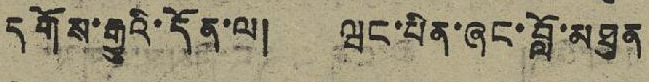དགོས་རྒྱུའི་དོན་ལ། ཝང་པིན་ཞང་བློ་མཐུན
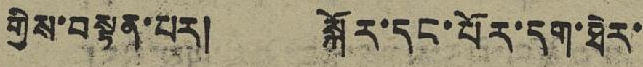གྱིས་བསྟན་པར། སྐོར་དང་པོར་དག་ཐེར་
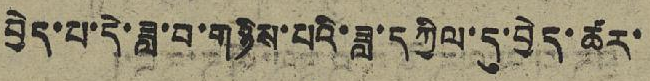བྱེད་པ་དེ་ཟླ་བ་གཉིས་པའི་ཟླ་དཀྱིལ་དུ་བྱེད་ཚར་
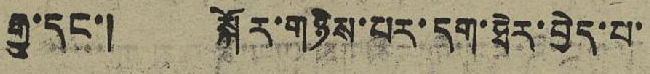རྒྱུ་དང་། སྐོར་གཉིས་པར་དག་ཐེར་བྱེད་པ་
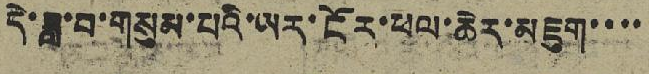དེ་ཟླ་བ་གསུམ་པའི་ཡར་ངོར་ཕ་ཆེར་མཇུག་་་་
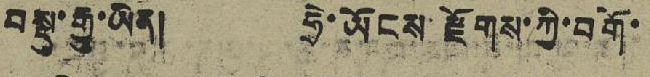བསྡུ་རྒྱུ་ཡིན། ཧྲེ་ཡོངས་རྫོགས་ཀྱི་བགོ་
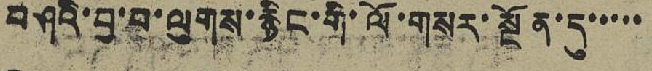བཤའི་བྱ་བ་ལུགས་རྙིང་གི་ལོ་གསར་སྔོན་དུ་་་་་
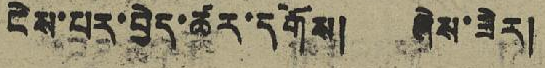ངེས་པར་བྱེད་ཚར་དགོས། ཞེས་ཟེར།
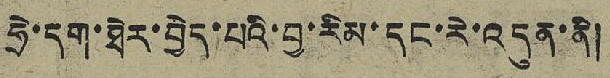ཧྲེ་དག་ཐེར་བྱེད་པའི་བྱ་རིམ་དང་རེ་འདུན་ནི།
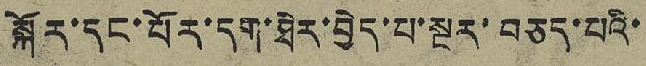སྐོར་དང་པོར་དག་ཐེར་བྱེད་པ་སྔར་བཅད་པའི་
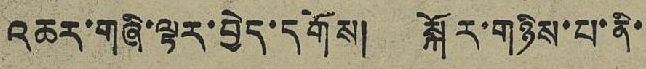འཆར་གཞི་ལྟར་བྱེད་དགོས། སྐོར་གཉིས་པ་ནི་
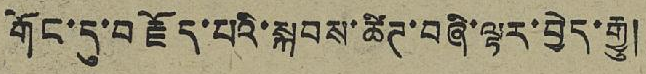གོང་དུ་བརྗོད་པའི་སྐབས་ཚིཌ་བཞི་ལྟར་བྱེད་རྒྱུ།
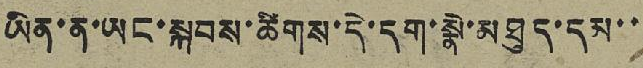ཡིན་ན་ཡང་སྐབས་ཚིགས་དེ་དག་སྣེ་མཐུད་དམ་་
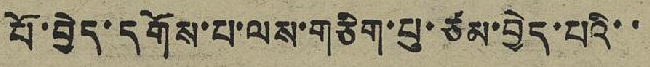པོ་བྱེད་དགོས་པ་ལས་གཅིག་པུ་ཙམ་བྱེད་པའི་་
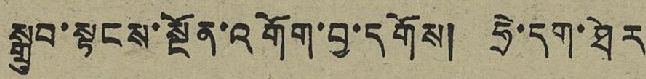སྒྲུབ་སྟངས་སྔོན་འགོག་བྱ་དགོས། ཧྲེ་དག་ཐེར
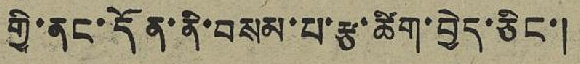གྱི་ནང་དོན་ནི་བསམ་པ་རྩ་ཚིག་བྱེད་ཅིང་།
